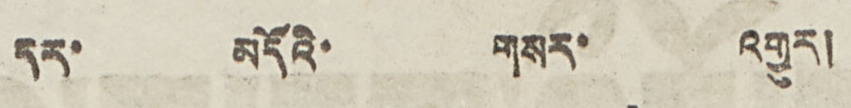དར་ མདོའི་ གསར་ འགྱུར།
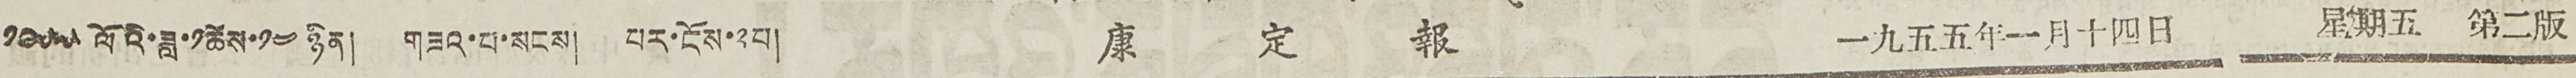༡༩༥༥ལོའི་ཟླ་༡ཚེས་༡༤ ཉིན། གཟའ་བ་སངས། པར་ངོས་༢པ། 康 定 報 一九五五年一月十四日 星期五 第二版
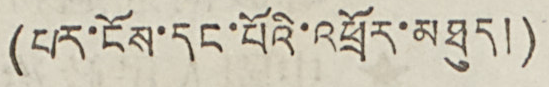(པར་ངོས་དང་པོའི་འཕྲོར་མཐུད།)
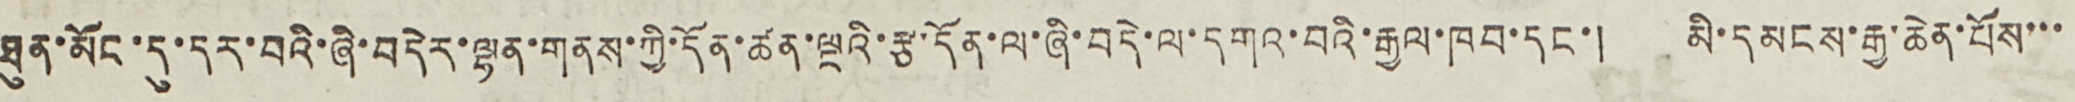ཐུན་མོང་དུ་དར་བའི་ཞི་བདེར་ལྷན་གནས་ཀྱི་དོན་ཚན་ལྔའི་རྩ་དོན་ལ་ཞི་བདེ་ལ་དགའ་བའི་རྒྱལ་ཁབ་དང་། མི་དམངས་རྒྱ་ཆེན་པོས་་་
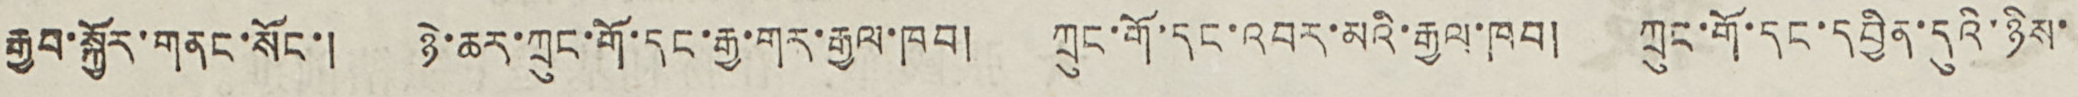རྒྱབ་སྐྱོར་གནང་སོང་། ཉེར་ཆར་ཀྲུང་གོ་དང་རྒྱ་གར་རྒྱལ་ཁབ། ཀྲུང་གོ་དང་འབར་མའི་རྒྱལ་ཁབ། ཀྲུང་གོ་དང་དབྱིན་དུའི་ཉིས་
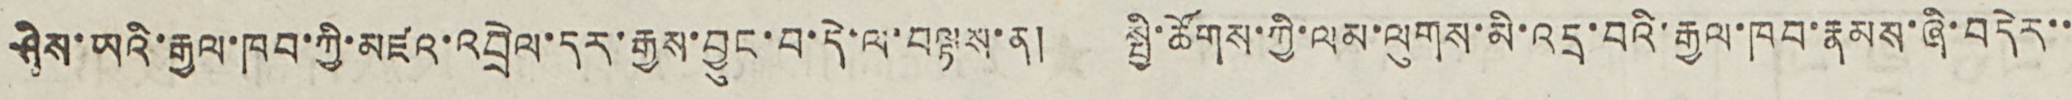ཤིས་ཡའི་རྒྱལ་ཁབ་ཀྱི་མཛའ་འབྲེལ་དར་རྒྱས་བྱུང་བ་དེ་ལ་བལྟས་ན། སྤྱི་ཚོགས་ཀྱི་ལམ་ལུགས་མི་འདྲ་བའི་རྒྱལ་ཁབ་རྣམས་ཞི་བདེར་་
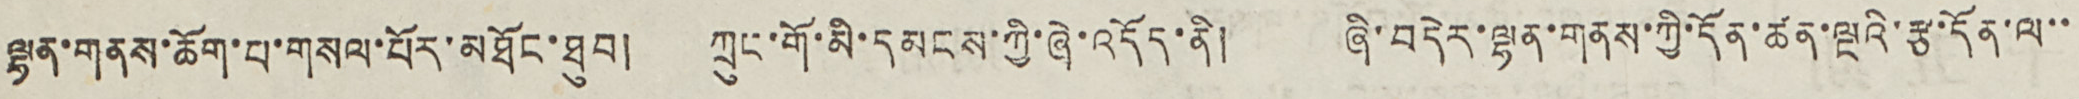ལྷན་གནས་ཆོག་པ་གསལ་པོར་མཐོང་ཐུབ། ཀྲུང་གོ་མི་དམངས་ཀྱི་ཞེ་འདོད་ནི། ཞི་བདེར་ལྷན་གནས་ཀྱི་དོན་ཚན་ལྔའི་རྩ་དོན་ལ་་
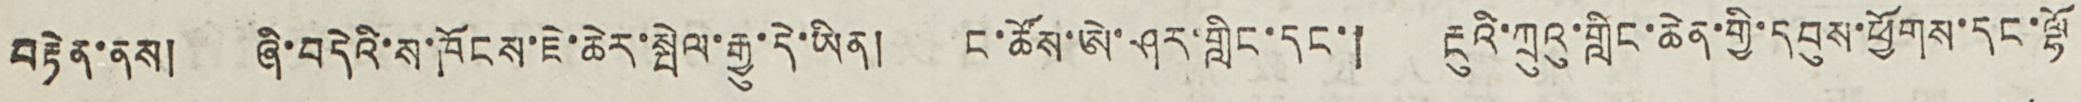བརྟེན་ནས། ཞི་བདེའི་ས་ཁོངས་ཇེ་ཆེར་སྤེལ་རྒྱུ་དེ་ཡིན། ང་ཚོས་ཨེ་ཤར་གླིང་དང་། རྔུའི་ཀྲུའུ་གླིང་ཆེན་གྱི་དབུས་ཕྱོགས་དང་ལྷོ
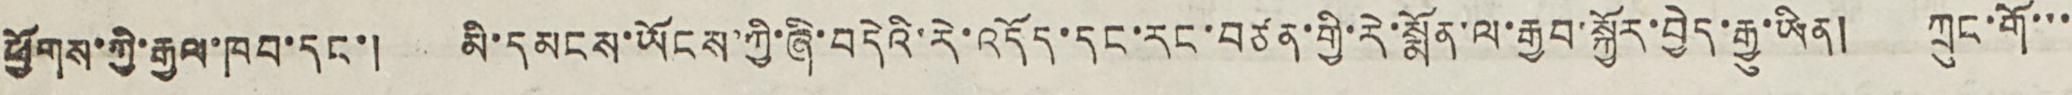ཕྱོགས་གྱི་རྒྱལ་ཁབ་དང་། མི་དམངས་ཡོངས་ཀྱི་ཞི་བདེའི་རེ་འདོད་དང་རང་བཙན་གྱི་རེ་སྨོན་ལ་རྒྱབ་སྐྱོར་བྱེད་རྒྱུ་ཡིན། ཀྲུང་གོ་་་
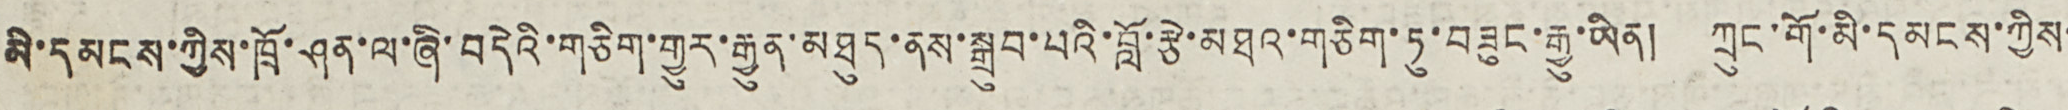མི་དམངས་ཀྱིས་ཁྲོ་ཤན་ལ་ཞི་བདེའི་གཅིག་གྱུར་རྒྱུན་མཐུད་ནས་སྒྲུབ་པའི་བློ་རྩེ་མཐའ་གཅིག་ཏུ་བཟུང་རྒྱུ་ཡིན། ཀྲུང་གོ་མི་དམངས་ཀྱིས་
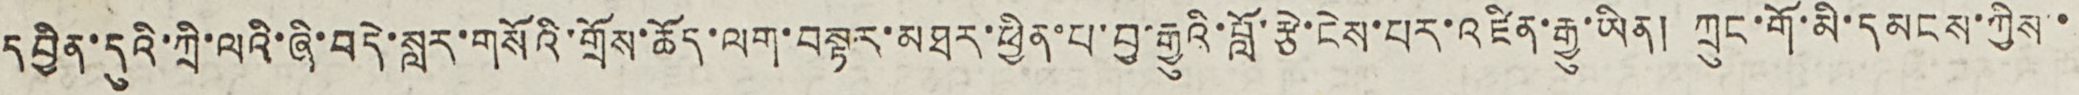དབྱིན་དུའི་ཀྲི་ལའི་ཞི་བདེ་སླར་གསོའི་གྲོས་ཆོད་ལག་བསྟར་མཐར་ཕྱིན་པ་བྱ་རྒྱུའི་བློ་རྩེ་ངེས་པར་འཛིན་རྒྱུ་ཡིན། ཀྲུང་གོ་མི་དམངས་ཀྱིས་
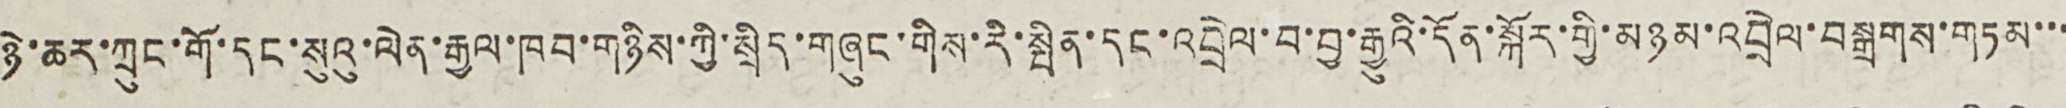ཉེ་ཆར་ཀྲུང་གོ་དང་སུའུ་ལེན་རྒྱལ་ཁབ་གཉིས་ཀྱི་སྲིད་གཞུང་གིས་རི་སྤིན་དང་འབྲེལ་བ་བྱ་རྒྱུའི་དོན་སྐོར་གྱི་མཉམ་འབྲེལ་བསྒྲགས་གཏམ་་་
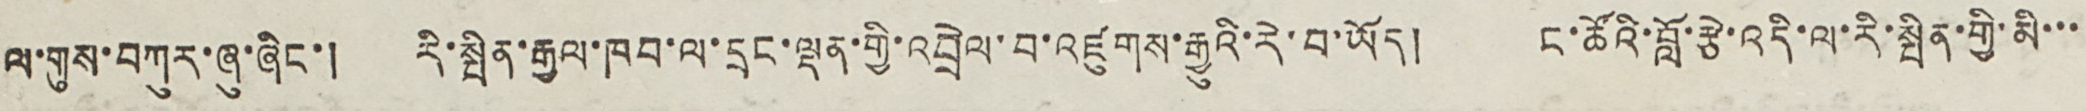ལ་གུས་བཀུར་ཞུ་ཞིང་། རི་སྤིན་རྒྱལ་ཁབ་ལ་དྲང་ལྡན་གྱི་འབྲེལ་བ་འཛུགས་རྒྱུའི་རེ་བ་ཡོད། ང་ཚོའི་བློ་རྩེ་འདི་ལ་རི་སྤིན་གྱི་མི་་་
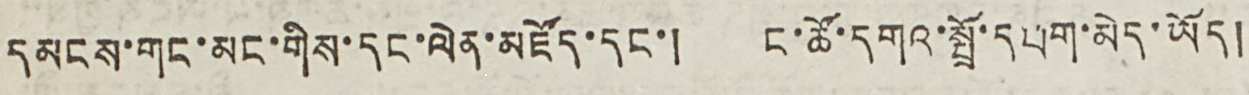དམངས་གང་མང་གིས་དང་ལེན་མཛོད་དང་། ང་ཚོ་དགའ་སྤྲོ་དཔག་མེད་ཡོད།
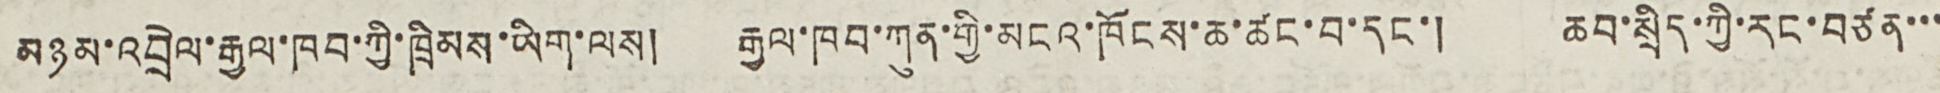མཉམ་འབྲེལ་རྒྱལ་ཁབ་ཀྱི་ཁྲིམས་ཡིག་ལས། རྒྱལ་ཁབ་ཀུན་གྱི་མངའ་ཁོངས་ཆ་ཚང་བ་དང་། ཆབ་སྲིད་ཀྱི་རང་བཙན་་་
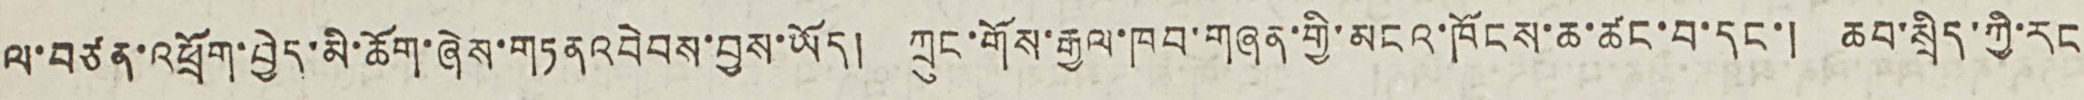ལ་བཙན་འཕྲོག་བྱེད་མི་ཆོག་ཞེས་གཏན འབེབས་བྱས་ཡོད། ཀྲུང་གོས་རྒྱལ་ཁབ་གཞན་གྱི་མངའ་ཁོངས་ཆ་ཚང་བ་དང་། ཆབ་སྲིད་ཀྱི་རང
